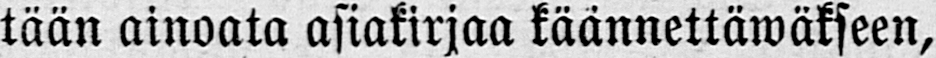tään ainoata asiakirjaa käännettäwäkseen,
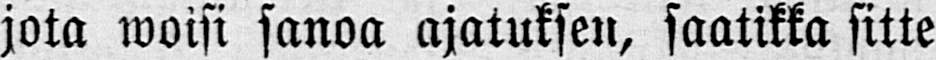jota woisi sanoa ajatuksen, saatikka sitte
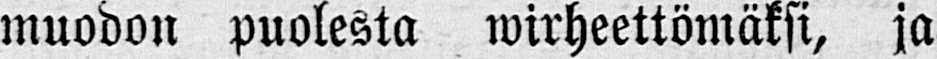muodon puolesta ja
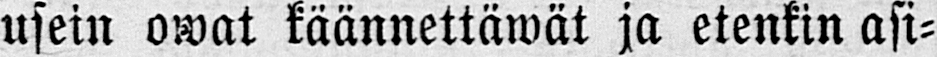usein owat käännettäwät ja etenkin asi-
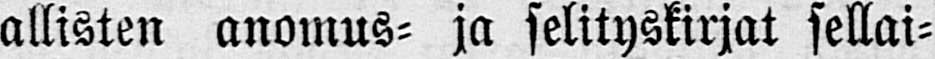allisten anomus- ja selityskirjat sellai-
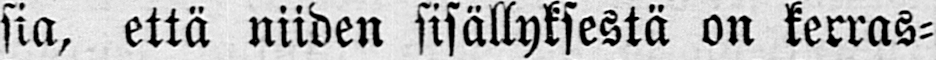sia, että niiden sisällyksestä on kerras-
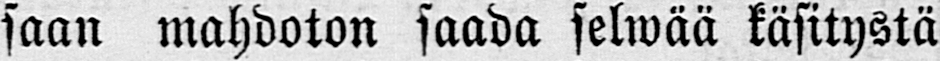saan mahdoton saada selwää käsitystä
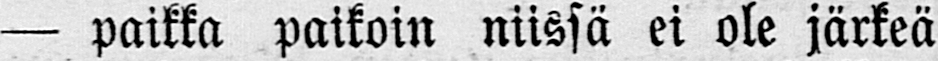— paikka paikoin niissä ei ole järkeä
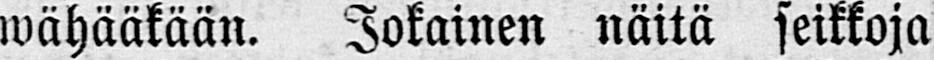wähääkään. Jokainen näitä seikkoja
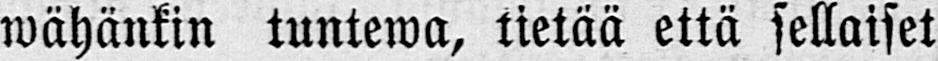wähänkin tuntewa, tietää että sellaiset
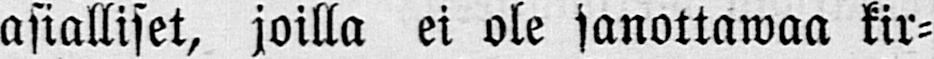asialliset, joilla ei ole sanottawaa kir-
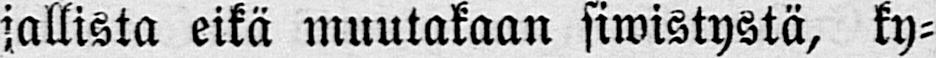jallista eikä muutakaan siwistystä, ky-
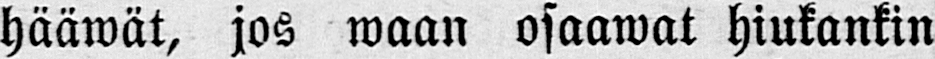hääwät, jos waan osaawat hiukankin
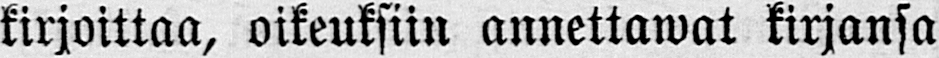kirjoittaa, oikeuksiin annettawat kirjansa
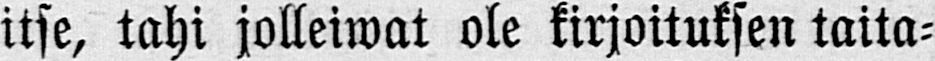itse, tahi jolleiwat ole kirjoituksen taita-
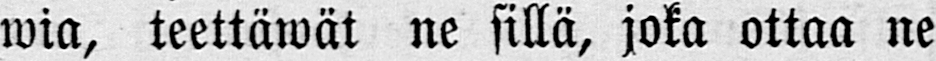wia, teettäwät ne sillä, joka ottaa ne
